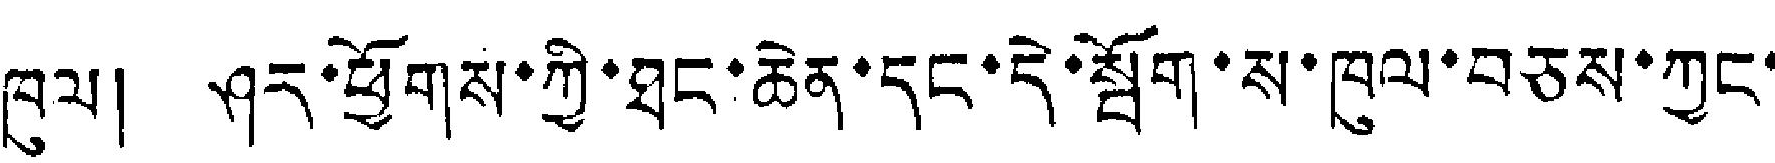ཁུལ། ཤར་ཕྱོགས་ཀྱི་ཐང་ཆེན་དང་དེ་སྦོག་ས་ཁུལ་བཅས་ཀྱང་
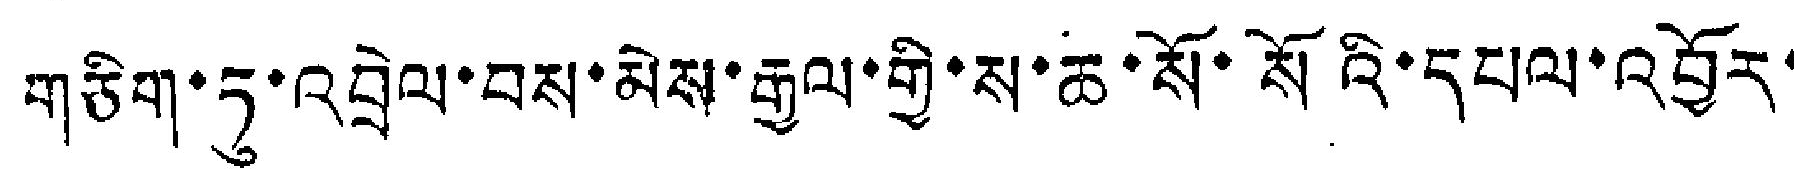གཅིག་ཏུ་འབྲེལ་བས་མེས་རྒྱལ་གྱི་ས་ཆ་སོ་སོའི་དཔལ་འབྱོར་
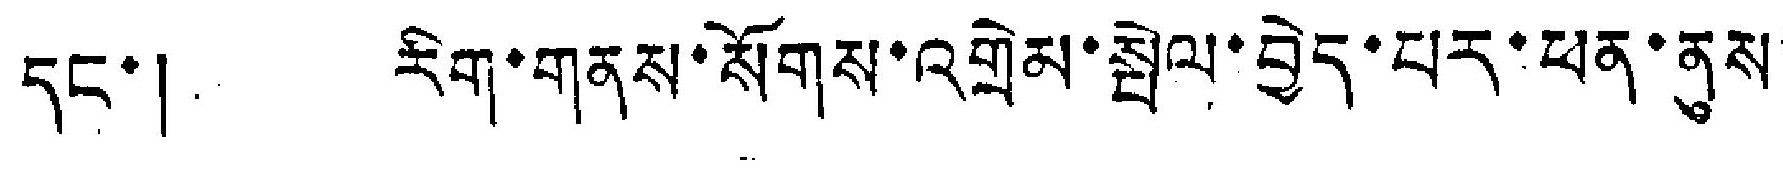དང་། རིག་གནས་སོགས་འགྲེམ་སྤེལ་བྱེད་པར་ཕན་ནུས་
